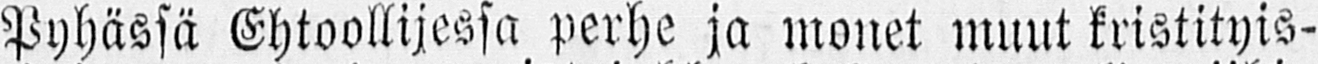Pyhässä Ehtoollisessa perhe ja monet muut kristityis-
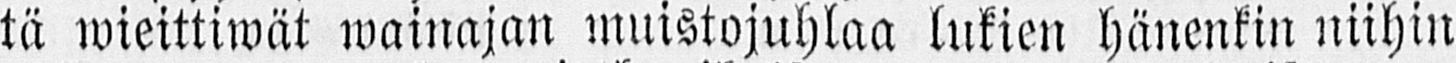tä wieittiwät wainajan muistojuhlaa lukien hänenkin niihin
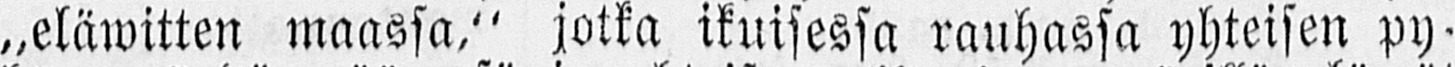„eläwitten maassa," jotka ikuisessa rauhassa yhteisen py-
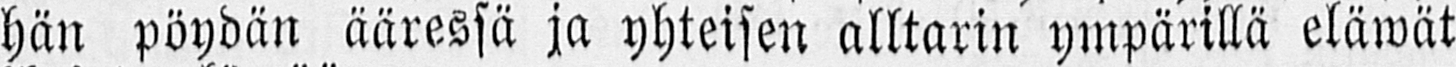hän pöydän ääressä ja yhteisen alltarin ympärillä eläwät
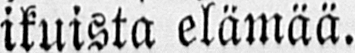ikuista elämää.
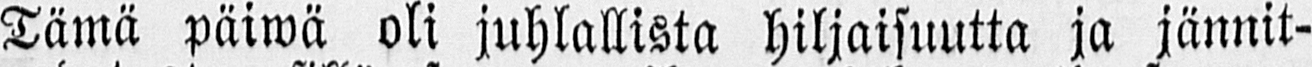Tämä päiwä oli juhlallista hiljaisuutta ja jännit-
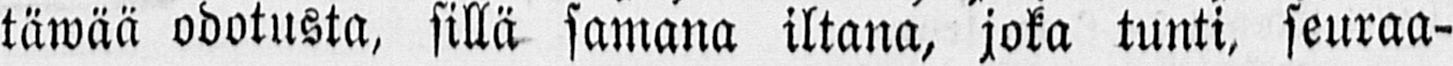täwää odotusta, sillä samana iltana, joka tunti, seuraa-
